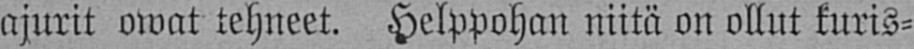ajurit owat tehneet. Helppohan niitä on ollut kuris-
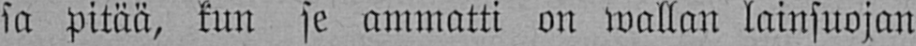sa pitää, kun se ammatti on wallan lainsuojan
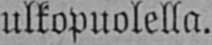ulkopuolella.
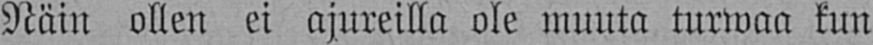Näin ollen ei ajureilla ole muuta turwaa kun
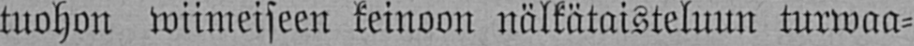tuohon wiimeiseen keinoon nälkätaisteluun turwaa-
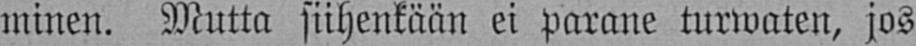minen. Mutta siihenkään ei parane turwaten, jos
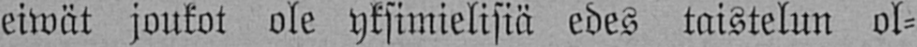eiwät joukot ole yksimielisiä edes taistelun ol-
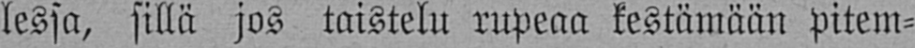lessa, sillä jos taistelu rupeaa kestämään pitem-
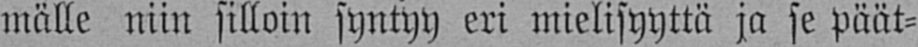mälle niin silloin syntyy eri mielisyyttä ja se päät-
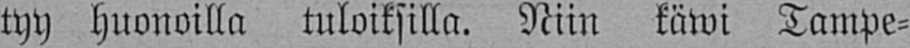tyy huonoilla tuloiksilla. Niin käwi Tampe-
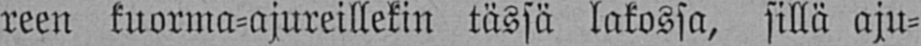reen kuorma-ajureillekin tässä lakossa, sillä aju-
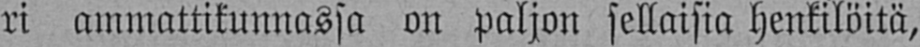ri ammattikunnassa on paljon sellaisia henkilöitä,
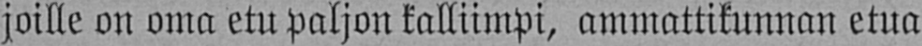joille on oma etu paljon kalliimpi, ammattikunnan etua
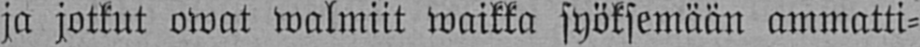ja jotkut owat walmiit waikka syöksemään ammatti-
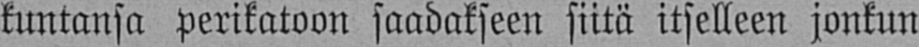kuntansa perikatoon saadakseen siitä itselleen jonkun
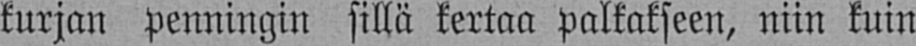kurjan penningin sillä kertaa palkakseen, niin kuin
